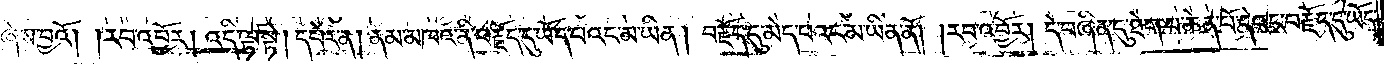ཞེས་བྱའོ། །རབ་འབྱོར། འདི་ལྟ་སྟེ། དཔེར་ན། ནམ་མཁའ་ནི་བརྗོད་དུ་ཡོད་པའང་མ་ཡིན། བརྗོད་དུ་མེད་པའང་མ་ཡིན་ནོ། །རབ་འབྱོར། དེ་བཞིན་དུ་ཐེག་པ་ཆེན་པོ་དེའང་བརྗོད་དུ་ཡོད་
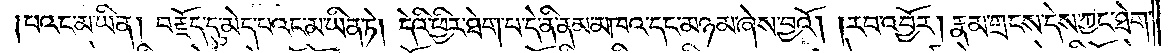པའང་མ་ཡིན། བརྗོད་དུ་མེད་པའང་མ་ཡིན་ཏེ། དེའི་ཕྱིར་ཐེག་པ་དེ་ནི་ནམ་མཁའ་དང་མཉམ་ཞེས་བྱའོ། །རབ་འབྱོར། རྣམ་གྲངས་དེས་ཀྱང་ཐེག་
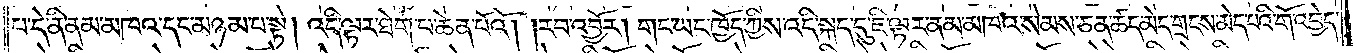པ་དེ་ནི་ནམ་མཁའ་དང་མཉམ་པ་སྟེ། འདི་ལྟར་ཐེག་པ་ཆེན་པོའོ། །རབ་འབྱོར། གང་ཡང་ཁྱོད་ཀྱིས་འདི་སྐད་དུ་ཇི་ལྟར་ནམ་མཁའ་སེམས་ཅན་ཚད་མེད་གྲངས་མེད་པའི་གོ་འབྱེད་
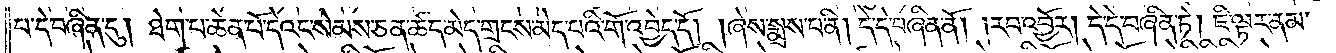པ་དེ་བཞིན་དུ། ཐེག་པ་ཆེན་པོ་དེའང་སེམས་ཅན་ཚད་མེད་གྲངས་མེད་པའི་གོ་འབྱེད་དོ། །ཞེས་སྨྲས་པ་ནི། དེ་དེ་བཞིན་ནོ། །རབ་འབྱོར། དེ་དེ་བཞིན་ཏེ། ཇི་ལྟར་ནམ་
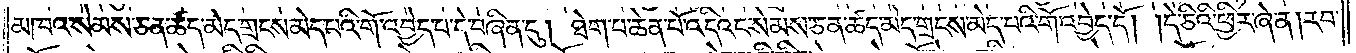མཁའ་སེམས་ཅན་ཚད་མེད་གྲངས་མེད་པའི་གོ་འབྱེད་པ་དེ་བཞིན་དུ། ཐེག་པ་ཆེན་པོ་འདིའང་སེམས་ཅན་ཚད་མེད་གྲངས་མེད་པའི་གོ་འབྱེད་དོ། །དེ་ཅིའི་ཕྱིར་ཞེ་ན། རབ་
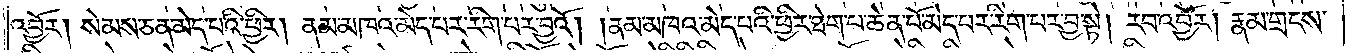འབྱོར། སེམས་ཅན་མེད་པའི་ཕྱིར། ནམ་མཁའ་མེད་པར་རིག་པར་བྱའོ། །ནམ་མཁའ་མེད་པའི་ཕྱིར་ཐེག་པ་ཆེན་པོ་མེད་པར་རིག་པར་བྱ་སྟེ། རབ་འབྱོར། རྣམ་གྲངས་
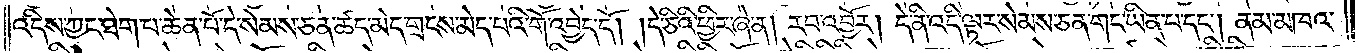འདིས་ཀྱང་ཐེག་པ་ཆེན་པོ་དེ་སེམས་ཅན་ཚད་མེད་གྲངས་མེད་པའི་གོ་འབྱེད་དོ། །དེ་ཅིའི་ཕྱིར་ཞེ་ན། རབ་འབྱོར། དེ་ནི་འདི་ལྟར་སེམས་ཅན་གང་ཡིན་པ་དང༌། ནམ་མཁའ་
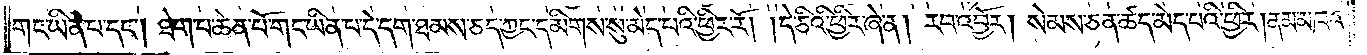གང་ཡིན་པ་དང༌། ཐེག་པ་ཆེན་པོ་གང་ཡིན་པ་དེ་དག་ཐམས་ཅད་ཀྱང་དམིགས་སུ་མེད་པའི་ཕྱིར་རོ། །དེ་ཅིའི་ཕྱིར་ཞེ་ན། རབ་འབྱོར། སེམས་ཅན་ཚད་མེད་པའི་ཕྱིར། ནམ་མཁའ་
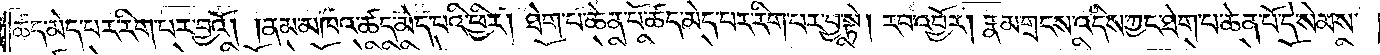ཚད་མེད་པར་རིག་པར་བྱའོ། །ནམ་མཁའ་ཚད་མེད་པའི་ཕྱིར། ཐེག་པ་ཆེན་པོ་ཚད་མེད་པར་རིག་པར་བྱ་སྟེ། རབ་འབྱོར། རྣམས་གྲངས་འདིས་ཀྱང་ཐེག་པ་ཆེན་པོ་དེ་སེམས་
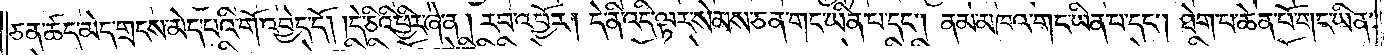ཅན་ཚད་མེད་གྲངས་མེད་པའི་གོ་འབྱེད་དོ། །དེ་ཅིའི་ཕྱིར་ཞེ་ན། རབ་འབྱོར། དེ་ནི་འདི་ལྟར་སེམས་ཅན་གང་ཡིན་པ་དང༌། ནམ་མཁའ་གང་ཡིན་པ་དང༌། ཐེག་པ་ཆེན་པོ་གང་ཡིན་
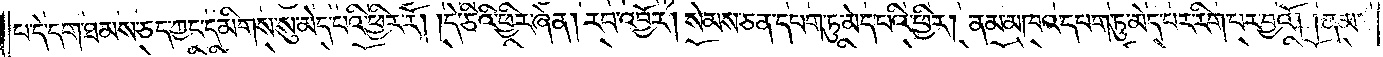པ་དེ་དག་ཐམས་ཅད་ཀྱང་དམིགས་སུ་མེད་པའི་ཕྱིར་རོ། །དེ་ཅིའི་ཕྱིར་ཞེ་ན། རབ་འབྱོར། སེམས་ཅན་དཔག་ཏུ་མེད་པའི་ཕྱིར། ནམ་མཁའ་དཔག་ཏུ་མེད་པར་རིག་པར་བྱའོ། །ནམ་
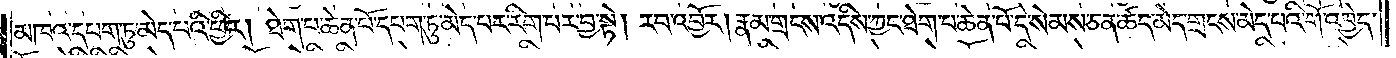མཁའ་དཔག་ཏུ་མེད་པའི་ཕྱིར། ཐེག་པ་ཆེན་པོ་དཔག་ཏུ་མེད་པར་རིག་པར་བྱ་སྟེ། རབ་འབྱོར། རྣམ་གྲངས་འདིས་ཀྱང་ཐེག་པ་ཆེན་པོ་དེ་སེམས་ཅན་ཚད་མེད་གྲངས་མེད་པའི་གོ་འབྱེད་
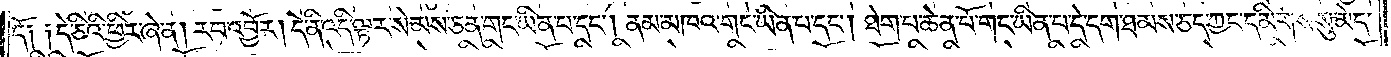དོ། །དེ་ཅིའི་ཕྱིར་ཞེ་ན། རབ་འབྱོར། དེ་ནི་འདི་ལྟར་སེམས་ཅན་གང་ཡིན་པ་དང༌། ནམ་མཁའ་གང་ཡིན་པ་དང༌། ཐེག་པ་ཆེན་པོ་གང་ཡིན་པ་དེ་དག་ཐམས་ཅད་ཀྱང་དམིགས་སུ་མེད་
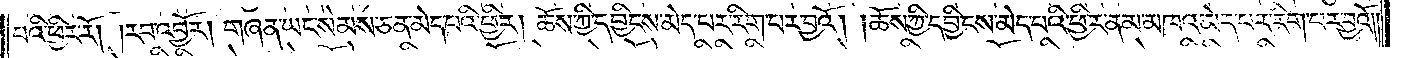པའི་ཕྱིར་རོ། །རབ་འབྱོར། གཞན་ཡང་སེམས་ཅན་མེད་པའི་ཕྱིར། ཆོས་ཀྱི་དབྱིངས་མེད་པར་རིག་པར་བྱའོ། །ཆོས་ཀྱི་དབྱིངས་མེད་པའི་ཕྱིར་ནམ་མཁའ་མེད་པར་རིག་པར་བྱའོ། །
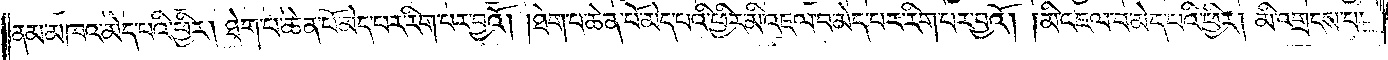ནམ་མཁའ་མེད་པའི་ཕྱིར། ཐེག་པ་ཆེན་པོ་མེད་པར་རིག་པར་བྱའོ། །ཐེག་པ་ཆེན་པོ་མེད་པའི་ཕྱིར་མི་འཇལ་བ་མེད་པར་རིག་པར་བྱའོ། །མི་འཇལ་བ་མེད་པའི་ཕྱིར། མི་འགྲངས་པ་
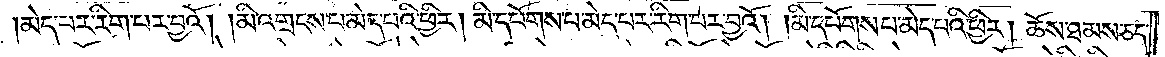མེད་པར་རིག་པར་བྱའོ། །མི་འགྲངས་པ་མེད་པའི་ཕྱིར། མི་དཔོགས་པ་མེད་པར་རིག་པར་བྱའོ། །མི་དཔོགས་པ་མེད་པའི་ཕྱིར། ཆོས་ཐམས་ཅད་
